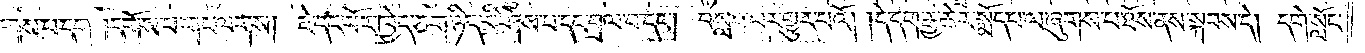འཕགས་པ་དག །དགོས་པ་གང་ལགས། ཇེ་དང་པོར་ཁྱེད་ཅག་ཉིད་མི་ཤེས་པ་དང་བྲལ་བ་དང༌། བསླབ་པར་གྱུར་པའོ། །དེ་དག་རྒྱ་ཆེར་སྨོད་པ་ལ་ཞུགས་པ་ཐོས་ནས་སྐབས་དེ། དགེ་སློང་
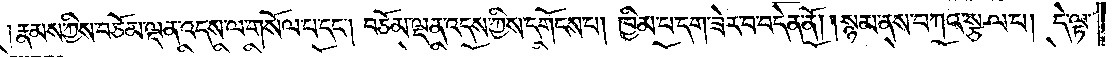རྣམས་ཀྱིས་བཅོམ་ལྡན་འདས་ལ་གསོལ་པ་དང༌། བཅོམ་ལྡན་འདས་ཀྱིས་དགོངས་པ། ཁྱིམ་པ་དག་ཟེར་བ་བདེན་ནོ། །སྙམ་ནས་བཀའ་སྩལ་པ།   དེ་ལྟ་
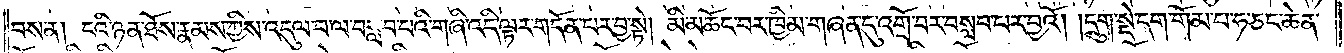བས་ན། ངའི་ཉན་ཐོས་རྣམས་ཀྱིས་འདུལ་བ་ལ་བསླབ་པའི་གཞི་འདི་ལྟར་གདོན་པར་བྱ་སྟེ། མི་མཆོད་པར་ཁྱིམ་གཞན་དུ་འགྲོ་བར་བསླབ་པར་བྱའོ། །དྲུག་སྡེ་དག་གོམ་པ་ཧ་ཅང་ཆེན་
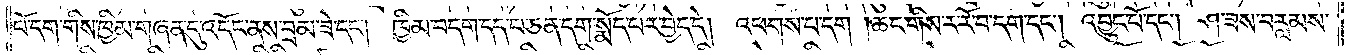པོ་དག་གིས་ཁྱིམ་གཞན་དུ་འདོང་ནས་བྲམ་ཟེ་དང༌། ཁྱིམ་བདག་དད་པ་ཅན་དག་སྨོད་པར་བྱེད་དེ། འཕགས་པ་དག །ཆང་གིས་ར་རོ་བ་དག་དང༌། འབྱུང་པོ་དང༌། ཤ་ཟས་བརླམས་
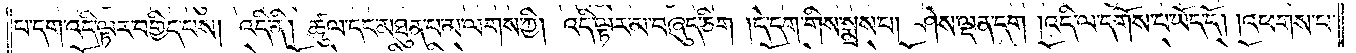པ་དག་འདི་ལྟར་བགྱིད་པས། འདི་ནི། ཚུལ་དང་མཐུན་པ་མ་ལགས་ཀྱི། འདི་ལྟར་མ་བཞུད་ཅིག །དེ་དག་གིས་སྨྲས་པ། ཤེས་ལྡན་དག །འདི་ལ་དགོས་པ་ཡོད་དོ། །འཕགས་པ་
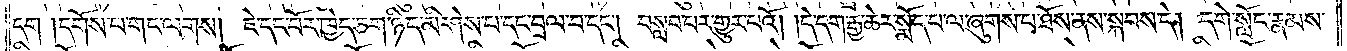དག །དགོས་པ་གང་ལགས། ཇེ་དང་པོར་ཁྱེད་ཅག་ཉིད་མི་ཤེས་པ་དང་བྲལ་བ་དང༌། བསླབ་པར་གྱུར་པའོ། །དེ་དག་རྒྱ་ཆེར་སྨོད་པ་ལ་ཞུགས་པ་ཐོས་ནས་སྐབས་དེ། དགེ་སློང་རྣམས་
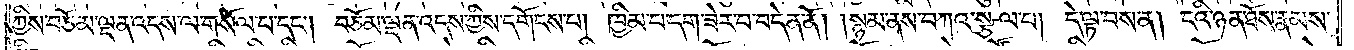ཀྱིས་བཅོམ་ལྡན་འདས་ལ་གསོལ་པ་དང༌། བཅོམ་ལྡན་འདས་ཀྱིས་དགོངས་པ། ཁྱིམ་པ་དག་ཟེར་བ་བདེན་ནོ། །སྙམ་ནས་བཀའ་སྩལ་པ། དེ་ལྟ་བས་ན། ངའི་ཉན་ཐོས་རྣམས་
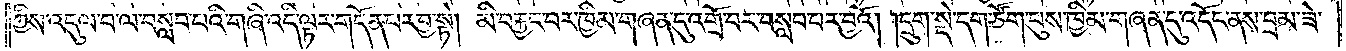ཀྱིས་འདུལ་བ་ལ་བསླབ་པའི་གཞི་འདི་ལྟར་གདོན་པར་བྱ་སྟེ། མི་བརྐྱང་བར་ཁྱིམ་གཞན་དུ་འགྲོ་བར་བསླབ་པར་བྱའོ། །དྲུག་སྡེ་དག་ཙོག་པུས་ཁྱིམ་གཞན་དུ་འདོང་ནས་བྲམ་ཟེ་
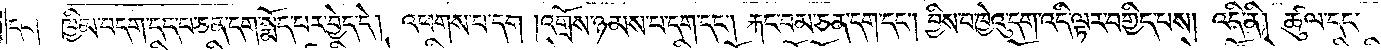དང༌། ཁྱིམ་བདག་དད་པ་ཅན་དག་སྨོད་པར་བྱེད་དེ། འཕགས་པ་དག །འགྲོས་ཉམས་པ་དག་དང༌། རྐང་བམ་ཅན་དག་དང༌། བྱིས་པ་ཁྱེའུ་དག་འདི་ལྟར་བགྱིད་པས། འདི་ནི། ཚུལ་དང་
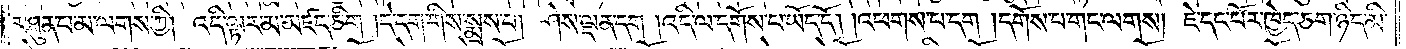མཐུན་པ་མ་ལགས་ཀྱི། འདི་ལྟར་མ་མཛད་ཅིག །དེ་དག་གིས་སྨྲས་པ། ཤེས་ལྡན་དག །འདི་ལ་དགོས་པ་ཡོད་དོ། །འཕགས་པ་དག །དགོས་པ་གང་ལགས། ཇེ་དང་པོར་ཁྱེད་ཅག་ཉིད་མི་
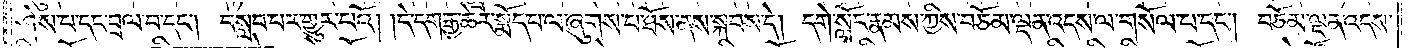ཤེས་པ་དང་བྲལ་བ་དང༌། བསླབ་པར་གྱུར་པའོ། །དེ་དག་རྒྱ་ཆེར་སྨོད་པ་ལ་ཞུགས་པ་ཐོས་ནས་སྐབས་དེ། དགེ་སློང་རྣམས་ཀྱིས་བཅོམ་ལྡན་འདས་ལ་གསོལ་པ་དང༌། བཅོམ་ལྡན་འདས་
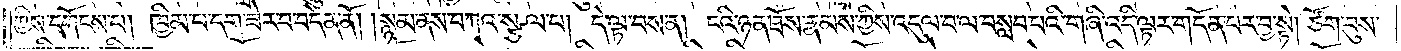ཀྱིས་དགོངས་པ། ཁྱིམ་པ་དག་ཟེར་བ་བདེན་ནོ། །སྙམ་ནས་བཀའ་སྩལ་པ། དེ་ལྟ་བས་ན། ངའི་ཉན་ཐོས་རྣམས་ཀྱིས་འདུལ་བ་ལ་བསླབ་པའི་གཞི་འདི་ལྟར་གདོན་པར་བྱ་སྟེ། ཙོག་བུས་
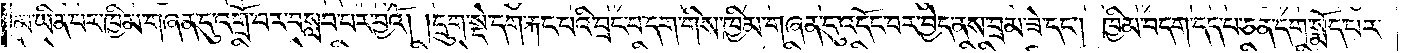མ་ཡིན་པར་ཁྱིམ་གཞན་དུ་འགྲོ་བར་བསླབ་པར་བྱའོ། །དྲུག་སྡེ་དག་རྐང་པའི་བྲང་བ་དག་གིས་ཁྱིམ་གཞན་དུ་འདོང་བར་བྱེད་ནས་བྲམ་ཟེ་དང༌། ཁྱིམ་བདག་དད་པ་ཅན་དག་སྨོད་པར་
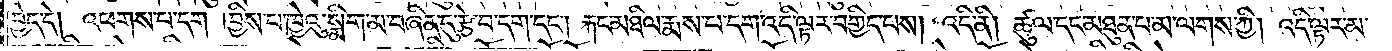བྱེད་དེ། འཕགས་པ་དག །བྱིས་པ་ཁྱེའུ་སྨིག་མ་བཞིན་དུ་རྩེ་བ་དག་དང༌། རྐང་མཐིལ་རྨས་པ་དག་འདི་ལྟར་བགྱིད་པས། འདི་ནི། ཚུལ་དང་མཐུན་པ་མ་ལགས་ཀྱི། འདི་ལྟར་མ་
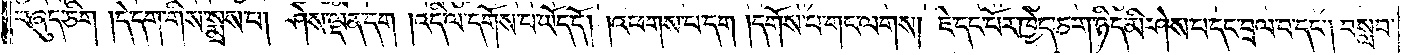བཞུད་ཅིག །དེ་དག་གིས་སྨྲས་པ། ཤེས་ལྡན་དག །འདི་ལ་དགོས་པ་ཡོད་དོ། །འཕགས་པ་དག །དགོས་པ་གང་ལགས། ཇེ་དང་པོར་ཁྱེད་ཅག་ཉིད་མི་ཤེས་པ་དང་བྲལ་བ་དང༌། བསླབ་
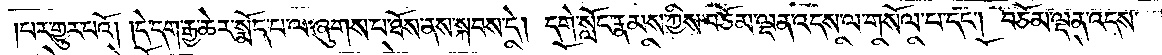པར་གྱུར་བའོ། །དེ་དག་རྒྱ་ཆེར་སྨོད་པ་ལ་ཞུགས་པ་ཐོས་ནས་སྐབས་དེ། དགེ་སློང་རྣམས་ཀྱིས་བཅོམ་ལྡན་འདས་ལ་གསོལ་བ་དང༌། བཅོམ་ལྡན་འདས་
